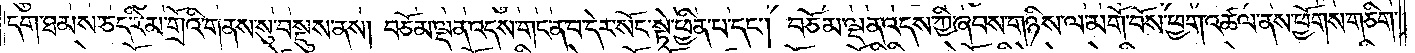དག་ཐམས་ཅད་རིམ་གྲོའི་གནས་སུ་བསྡུས་ནས། བཅོམ་ལྡན་འདས་གང་ན་བ་དེར་སོང་སྟེ་ཕྱིན་པ་དང༌། བཅོམ་ལྡན་འདས་ཀྱི་ཞབས་གཉིས་ལ་མགོ་བོས་ཕྱག་འཚལ་ནས་ཕྱོགས་གཅིག་
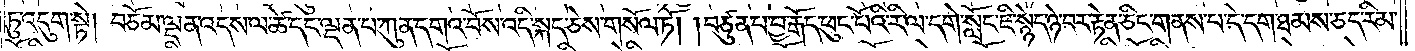ཏུ་འདུག་སྟེ། བཅོམ་ལྡན་འདས་ལ་ཚེ་དང་ལྡན་པ་ཀུན་དགའ་བོས་འདི་སྐད་ཅེས་གསོལ་ཏོ། །བཙུན་པ་བྱ་རྒོད་ཕུང་པོའི་རིལ་དགེ་སློང་ཇི་སྙེད་ཉེ་བར་རྟེན་ཅིང་གནས་པ་དེ་དག་ཐམས་ཅད་རིམ་
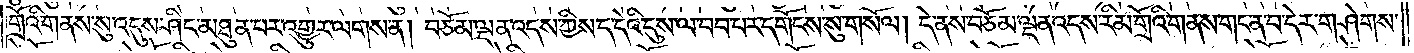གྲོའི་གནས་སུ་འདུས་ཤིང་མཐུན་པར་འགྱུར་ལགས་ན། བཅོམ་ལྡན་འདས་ཀྱིས་ད་དེའི་དུས་ལ་བབ་པར་དགོངས་སུ་གསོལ། དེ་ནས་བཅོམ་ལྡན་འདས་རིམ་གྲོའི་གནས་གང་ན་བ་དེར་གཤེགས་
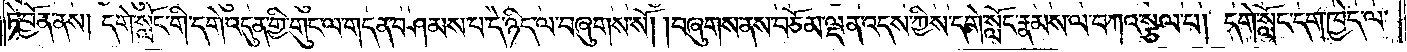ཏེ་བྱོན་ནས། དགེ་སློང་གི་དགེ་འདུན་གྱི་གུང་ལ་གདན་བཤམས་པ་དེ་ཉིད་ལ་བཞུགས་སོ། །བཞུགས་ནས་བཅོམ་ལྡན་འདས་ཀྱིས་དགེ་སློང་རྣམས་ལ་བཀའ་སྩལ་པ། དགེ་སློང་དག་ཁྱེད་ལ་
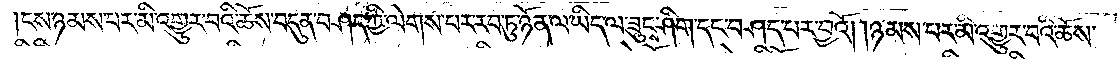ངས་ཉམས་པར་མི་འགྱུར་བའི་ཆོས་བདུན་བཤད་ཀྱི་ལེགས་པར་རབ་ཏུ་ཉོན་ལ་ཡིད་ལ་ཟུངས་ཤིག་དང་བཤད་པར་བྱའོ། །ཉམས་པར་མི་འགྱུར་བའི་ཆོས་
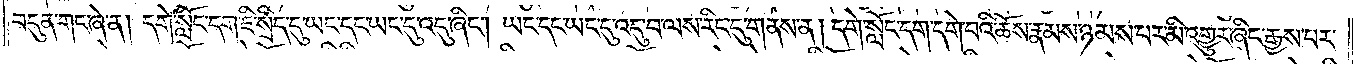བདུན་གང་ཞེ་ན། དགེ་སློང་དག་ཇི་སྲིད་དུ་ཡང་དང་ཡང་དུ་འདུ་ཤིང༌། ཡང་དང་ཡང་དུ་འདུ་བ་ལས་རིང་དུ་གནས་ན། དགེ་སློང་དག་དགེ་བའི་ཆོས་རྣམས་ཉམས་པར་མི་འགྱུར་ཞིང་རྒྱས་པར་
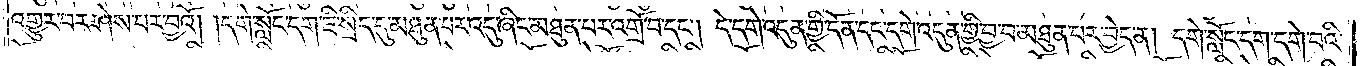འགྱུར་བར་ཤེས་པར་བྱའོ། །དགེ་སློང་དག་ཇི་སྲིད་དུ་མཐུན་པར་འདུ་ཞིང་མཐུན་པར་འགྲོ་བ་དང༌། དེ་དགེ་འདུན་གྱི་དོན་དང་དགེ་འདུན་གྱི་བྱ་བ་མཐུན་པར་བྱེད་ན། དགེ་སློང་དག་དགེ་བའི་
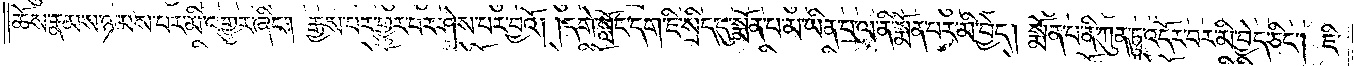ཆོས་རྣམས་ཉམས་པར་མི་འགྱུར་ཞིང༌། རྒྱས་པར་གྱུར་པར་ཤེས་པར་བྱའོ། །དགེ་སློང་དག་ཇི་སྲིད་དུ་སྨོན་པ་མ་ཡིན་པ་ལ་ནི་སྨོན་པར་མི་བྱེད། སྨོན་པ་ནི་ཀུན་ཏུ་འདོར་བར་མི་བྱེད་ཅིང༌། ཇི་
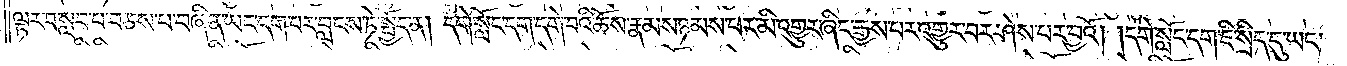ལྟར་བསླབ་པ་བཅས་པ་བཞིན་ཡང་དག་པར་བླངས་ཏེ་སྤྱོད་ན། དགེ་སློང་དག་དགེ་བའི་ཆོས་རྣམས་ཉམས་པར་མི་འགྱུར་ཞིང་རྒྱས་པར་འགྱུར་བར་ཤེས་པར་བྱའོ། །དགེ་སློང་དག་ཇི་སྲིད་དུ་ཡང་
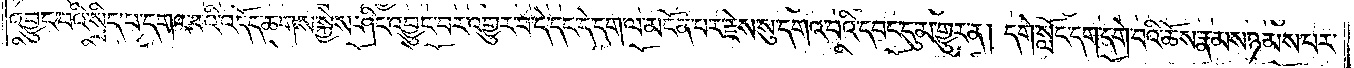འབྱུང་བའི་སྲིད་པ་དགའ་བའི་འདོད་ཆགས་སྐྱེས་ཤིང་འབྱུང་བར་འགྱུར་བ་དེ་དང་དེ་དག་ལ་མངོན་པར་རྗེས་སུ་དགའ་བའི་དབང་དུ་མ་གྱུར་ན། དགེ་སློང་དག་དགེ་བའི་ཆོས་རྣམས་ཉམས་པར་
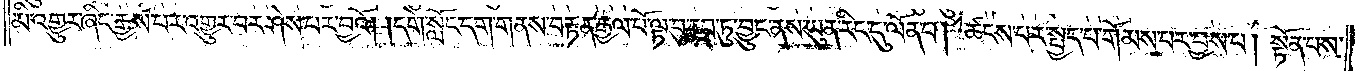མི་འགྱུར་ཞིང་རྒྱས་པར་འགྱུར་བར་ཤེས་པར་བྱའོ། །དགེ་སློང་དག་གནས་བརྟན་རྒྱལ་པོ་ལྟ་བུ་རབ་ཏུ་བྱུང་ནས་ཡུན་རིང་དུ་ལོན་པ། ཚངས་པར་སྤྱད་པ་གོམས་པར་བྱས་པ། སྟོན་པས་
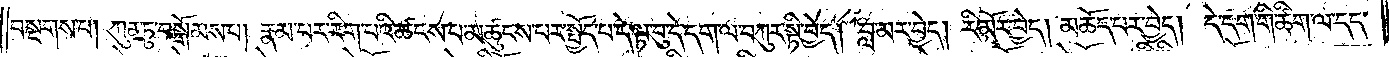བསྔགས་པ། ཀུན་ཏུ་བསྒོམས་པ། རྣམ་པར་རིག་པའི་ཚངས་པར་མཚུངས་པར་སྤྱོད་པ་དེ་ལྟ་བུ་དེ་དག་ལ་བཀུར་སྟི་བྱེད། བླ་མར་བྱེད། རི་མོར་བྱེད། མཆོད་པར་བྱེད། དེ་དག་གི་ཚིག་ལ་དད་
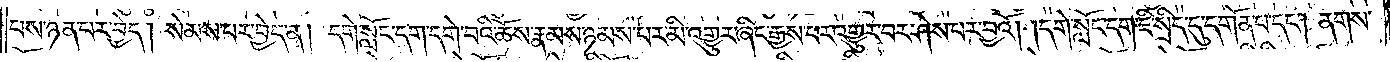པས་ཉན་པར་བྱེད། སེམས་པར་བྱེད་ན། དགེ་སློང་དག་དགེ་བའི་ཆོས་རྣམས་ཉམས་པར་མི་འགྱུར་ཞིང་རྒྱས་པར་འགྱུར་བར་ཤེས་པར་བྱའོ། །དགེ་སློང་དག་ཇི་སྲིད་དུ་དགོན་པ་དང༌། ནགས་
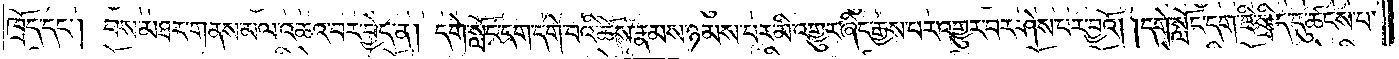ཁྲོད་དང༌། བས་མཐར་གནས་མལ་འཆའ་བར་བྱེད་ན། དགེ་སློང་དག་དགེ་བའི་ཆོས་རྣམས་ཉམས་པར་མི་འགྱུར་ཞིང་རྒྱས་པར་འགྱུར་བར་ཤེས་པར་བྱའོ། །དགེ་སློང་དག་ཇི་སྲིད་དུ་ཚངས་པ་
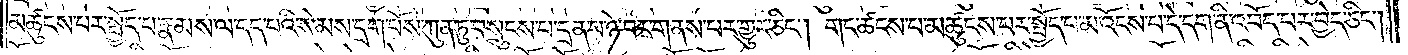མཚུངས་པར་སྤྱོད་པ་རྣམས་ལ་དད་པའི་སེམས་དྲག་པོས་ཀུན་ཏུ་བསྲུངས་པ་དྲན་པ་ཉེ་བར་གནས་པར་གྱུར་ཅིང༌། གང་ཚངས་པ་མཚུངས་པར་སྤྱོད་པ་མ་འོངས་པ་དེ་དག་ནི་འབོད་པར་བྱེད་ཅིང༌།
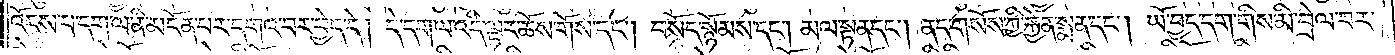འོངས་པ་དག་ལ་ནི་མངོན་པར་དགའ་བར་བྱེད་དེ། དེ་དག་ལ་འདི་ལྟར་ཆོས་གོས་དང༌། བསོད་སྙོམས་དང༌། མལ་སྟན་དང༌། ནད་གསོས་ཀྱི་རྐྱེན་སྨན་དང༌། ཡོ་བྱད་དག་གིས་མི་བྲེལ་བར་
